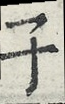子
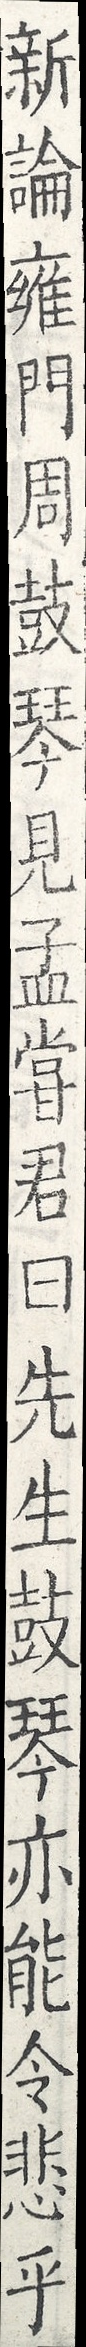新論雍門周鼓琴見孟嘗君曰先生鼓琴亦能令悲乎
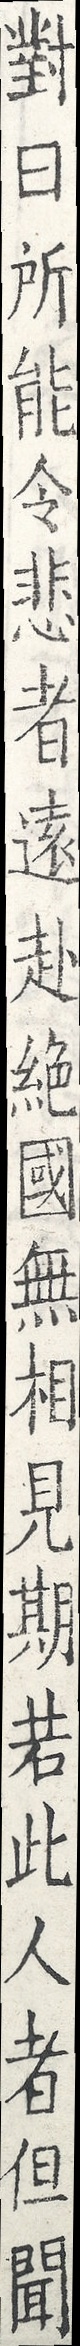對曰所能令悲者遠赴絕國無相見期若此人者但聞
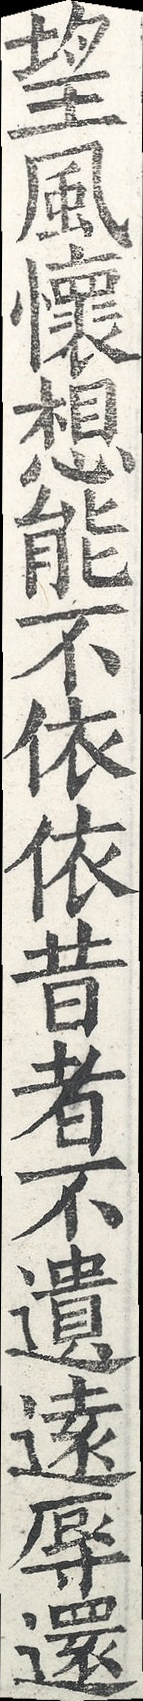望風懷想能不依依昔者不遺遠辱還
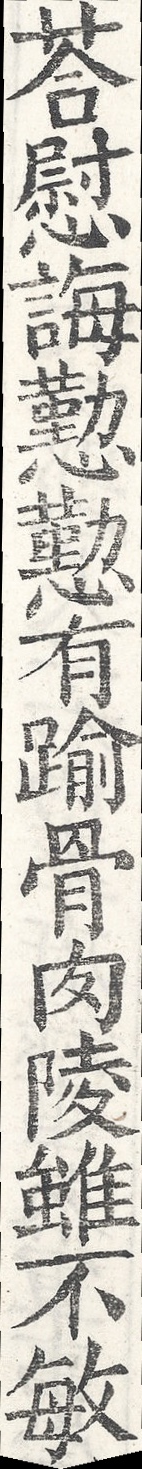荅慰誨懃懃有踰骨肉陵雖不敏
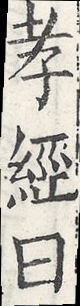孝經曰
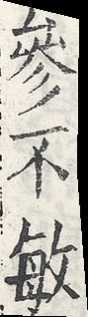參不敏
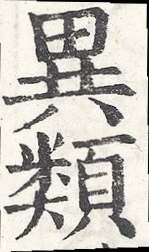異類
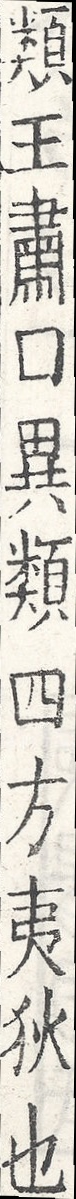類王肅口異類四方夷狄也
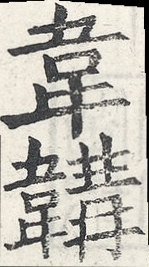韋韝
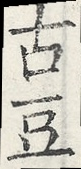古豆
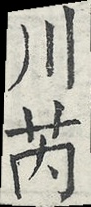川芮
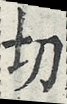切
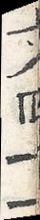文四十一
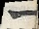一
